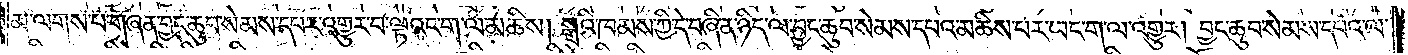མ་ལགས་པ་གཞན་བྱང་ཆུབ་སེམས་དཔར་འགྱུར་བ་ལྟའང་ག་ལ་མཆིས། སྒྲའི་ཁམས་ཀྱི་དེ་བཞིན་ཉིད་ལ་བྱང་ཆུབ་སེམས་དཔའ་མཆིས་པར་ཡང་ག་ལ་འགྱུར། བྱང་ཆུབ་སེམས་དཔའ་ལ་
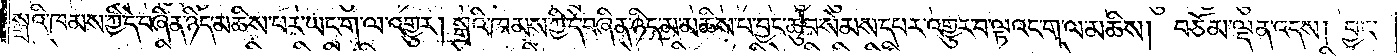སྒྲའི་ཁམས་ཀྱི་དེ་བཞིན་ཉིད་མཆིས་པར་ཡང་ག་ལ་འགྱུར། སྒྲའི་ཁམས་ཀྱི་དེ་བཞིན་ཉིད་མ་མཆིས་པ་བྱང་ཆུབ་སེམས་དཔར་འགྱུར་བ་ལྟའང་ག་ལ་མཆིས། བཅོམ་ལྡན་འདས། བྱང་
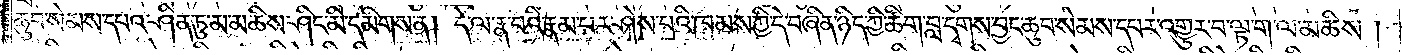ཆུབ་སེམས་དཔའ་ཤིན་ཏུ་མ་མཆིས་ཤིང་མི་དམིགས་ན། དེ་ལ་རྣ་བའི་རྣམ་པར་ཤེས་པའི་ཁམས་ཀྱི་དེ་བཞིན་ཉིད་ཀྱི་ཚིག་བླ་དྭགས་བྱང་ཆུབ་སེམས་དཔར་འགྱུར་བ་ལྟ་ག་ལ་མཆིས།
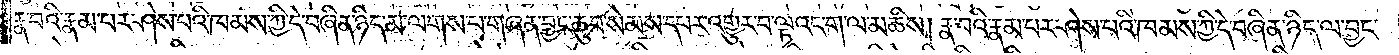རྣ་བའི་རྣམ་པར་ཤེས་པའི་ཁམས་ཀྱི་དེ་བཞིན་ཉིད་མ་ལགས་པ་གཞན་བྱང་ཆུབ་སེམས་དཔར་འགྱུར་བ་ལྟའང་ག་ལ་མཆིས། རྣ་བའི་རྣམ་པར་ཤེས་པའི་ཁམས་ཀྱི་དེ་བཞིན་ཉིད་ལ་བྱང་
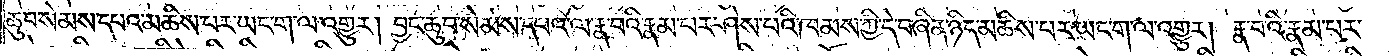ཆུབ་སེམས་དཔའ་མཆིས་པར་ཡང་ག་ལ་འགྱུར། བྱང་ཆུབ་སེམས་དཔའ་ལ་རྣ་བའི་རྣམ་པར་ཤེས་པའི་ཁམས་ཀྱི་དེ་བཞིན་ཉིད་མཆིས་པར་ཡང་ག་ལ་འགྱུར། རྣ་བའི་རྣམ་པར་
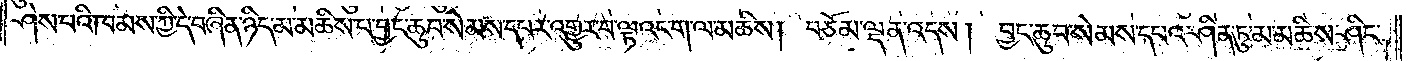ཤེས་པའི་ཁམས་ཀྱི་དེ་བཞིན་ཉིད་མ་མཆིས་པ་བྱང་ཆུབ་སེམས་དཔར་འགྱུར་བ་ལྟའང་ག་ལ་མཆིས། བཅོམ་ལྡན་འདས། བྱང་ཆུབ་སེམས་དཔའ་ཤིན་ཏུ་མ་མཆིས་ཤིང་
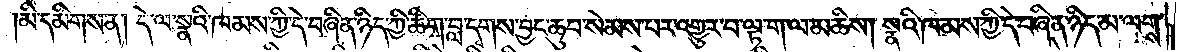མི་དམིགས་ན། དེ་ལ་སྣའི་ཁམས་ཀྱི་དེ་བཞིན་ཉིད་ཀྱི་ཚིག་བླ་དྭགས་བྱང་ཆུབ་སེམས་པར་འགྱུར་བ་ལྟ་ག་ལ་མཆིས། སྣའི་ཁམས་ཀྱི་དེ་བཞིན་ཉིད་མ་ལགས་
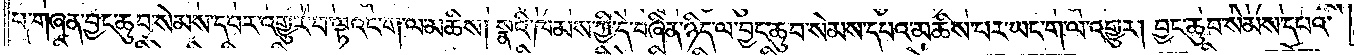པ་གཞན་བྱང་ཆུབ་སེམས་དཔར་འགྱུར་བ་ལྟའང་ག་ལ་མཆིས། སྣའི་ཁམས་ཀྱི་དེ་བཞིན་ཉིད་ལ་བྱང་ཆུབ་སེམས་དཔའ་མཆིས་པར་ཡང་ག་ལ་འགྱུར། བྱང་ཆུབ་སེམས་དཔའ་
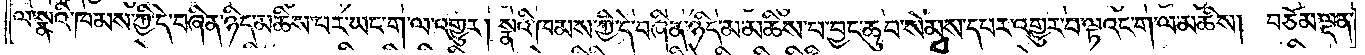ལ་སྣའི་ཁམས་ཀྱི་དེ་བཞིན་ཉིད་མཆིས་པར་ཡང་ག་ལ་འགྱུར། སྣའི་ཁམས་ཀྱི་དེ་བཞིན་ཉིད་མ་མཆིས་པ་བྱང་ཆུབ་སེམས་དཔར་འགྱུར་བ་ལྟའང་ག་ལ་མཆིས། བཅོམ་ལྡན་
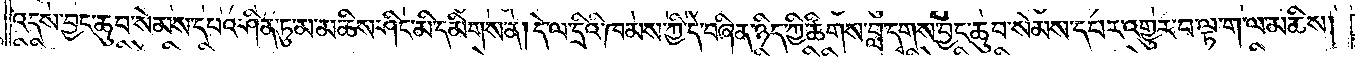འདས་བྱང་ཆུབ་སེམས་དཔའ་ཤིན་ཏུ་མ་མཆིས་ཤིང་མི་དམིགས་ན། དེ་ལ་དྲིའི་ཁམས་ཀྱི་དེ་བཞིན་ཉིད་ཀྱི་ཚིགས་བླ་དྭགས་བྱང་ཆུབ་སེམས་དཔར་འགྱུར་བ་ལྟ་ག་ལ་མཆིས།
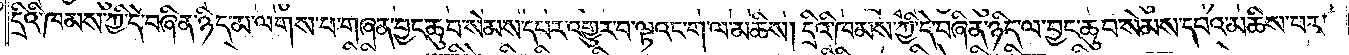དྲིའི་ཁམས་ཀྱི་དེ་བཞིན་ཉིད་མ་ལགས་པ་གཞན་བྱང་ཆུབ་སེམས་དཔར་འགྱུར་བ་ལྟའང་ག་ལ་མཆིས། དྲིའི་ཁམས་ཀྱི་དེ་བཞིན་ཉིད་ལ་བྱང་ཆུབ་སེམས་དཔའ་མཆིས་པར་
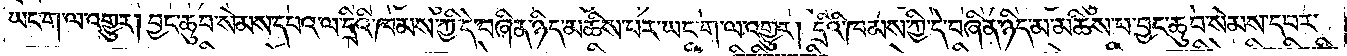ཡང་ག་ལ་འགྱུར། བྱང་ཆུབ་སེམས་དཔའ་ལ་དྲིའི་ཁམས་ཀྱི་དེ་བཞིན་ཉིད་མཆིས་པར་ཡང་ག་ལ་འགྱུར། དྲིའི་ཁམས་ཀྱི་དེ་བཞིན་ཉིད་མ་མཆིས་བ་བྱང་ཆུབ་སེམས་དཔར་
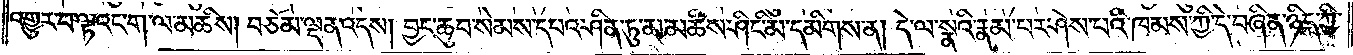འགྱུར་བ་ལྟའང་ག་ལ་མཆིས། བཅོམ་ལྡན་འདས། བྱང་ཆུབ་སེམས་དཔའ་ཤིན་ཏུ་མ་མཆིས་ཤིང་མི་དམིགས་ན། དེ་ལ་སྣའི་རྣམ་པར་ཤེས་པའི་ཁམས་ཀྱི་དེ་བཞིན་ཉིད་ཀྱི་
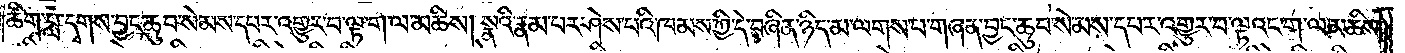ཚིག་བླ་དྭགས་བྱང་ཆུབ་སེམས་དཔར་འགྱུར་བ་ལྟ་ག་ལ་མཆིས། སྣའི་རྣམ་པར་ཤེས་པའི་ཁམས་ཀྱི་དེ་བཞིན་ཉིད་མ་ལགས་པ་གཞན་བྱང་ཆུབ་སེམས་དཔར་འགྱུར་བ་ལྟའང་ག་ལ་མཆིས་
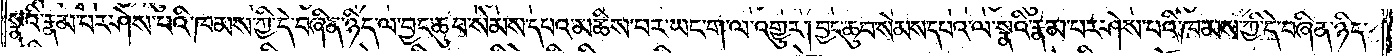སྣའི་རྣམ་པར་ཤེས་པའི་ཁམས་ཀྱི་དེ་བཞིན་ཉིད་ལ་བྱང་ཆུབ་སེམས་དཔའ་མཆིས་པར་ཡང་ག་ལ་འགྱུར། བྱང་ཆུབ་སེམས་དཔའ་ལ་སྣའི་རྣམ་པར་ཤེས་པའི་ཁམས་ཀྱི་དེ་བཞིན་ཉིད་
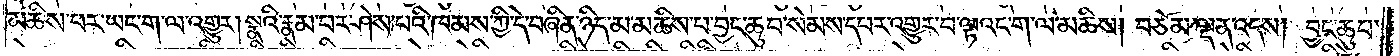མཆིས་པར་ཡང་ག་ལ་འགྱུར། སྣའི་རྣམ་པར་ཤེས་པའི་ཁམས་ཀྱི་དེ་བཞིན་ཉིད་མ་མཆིས་པ་བྱང་ཆུབ་སེམས་དཔར་འགྱུར་བ་ལྟའང་ག་ལ་མཆིས། བཅོམ་ལྡན་འདས། བྱང་ཆུབ་
